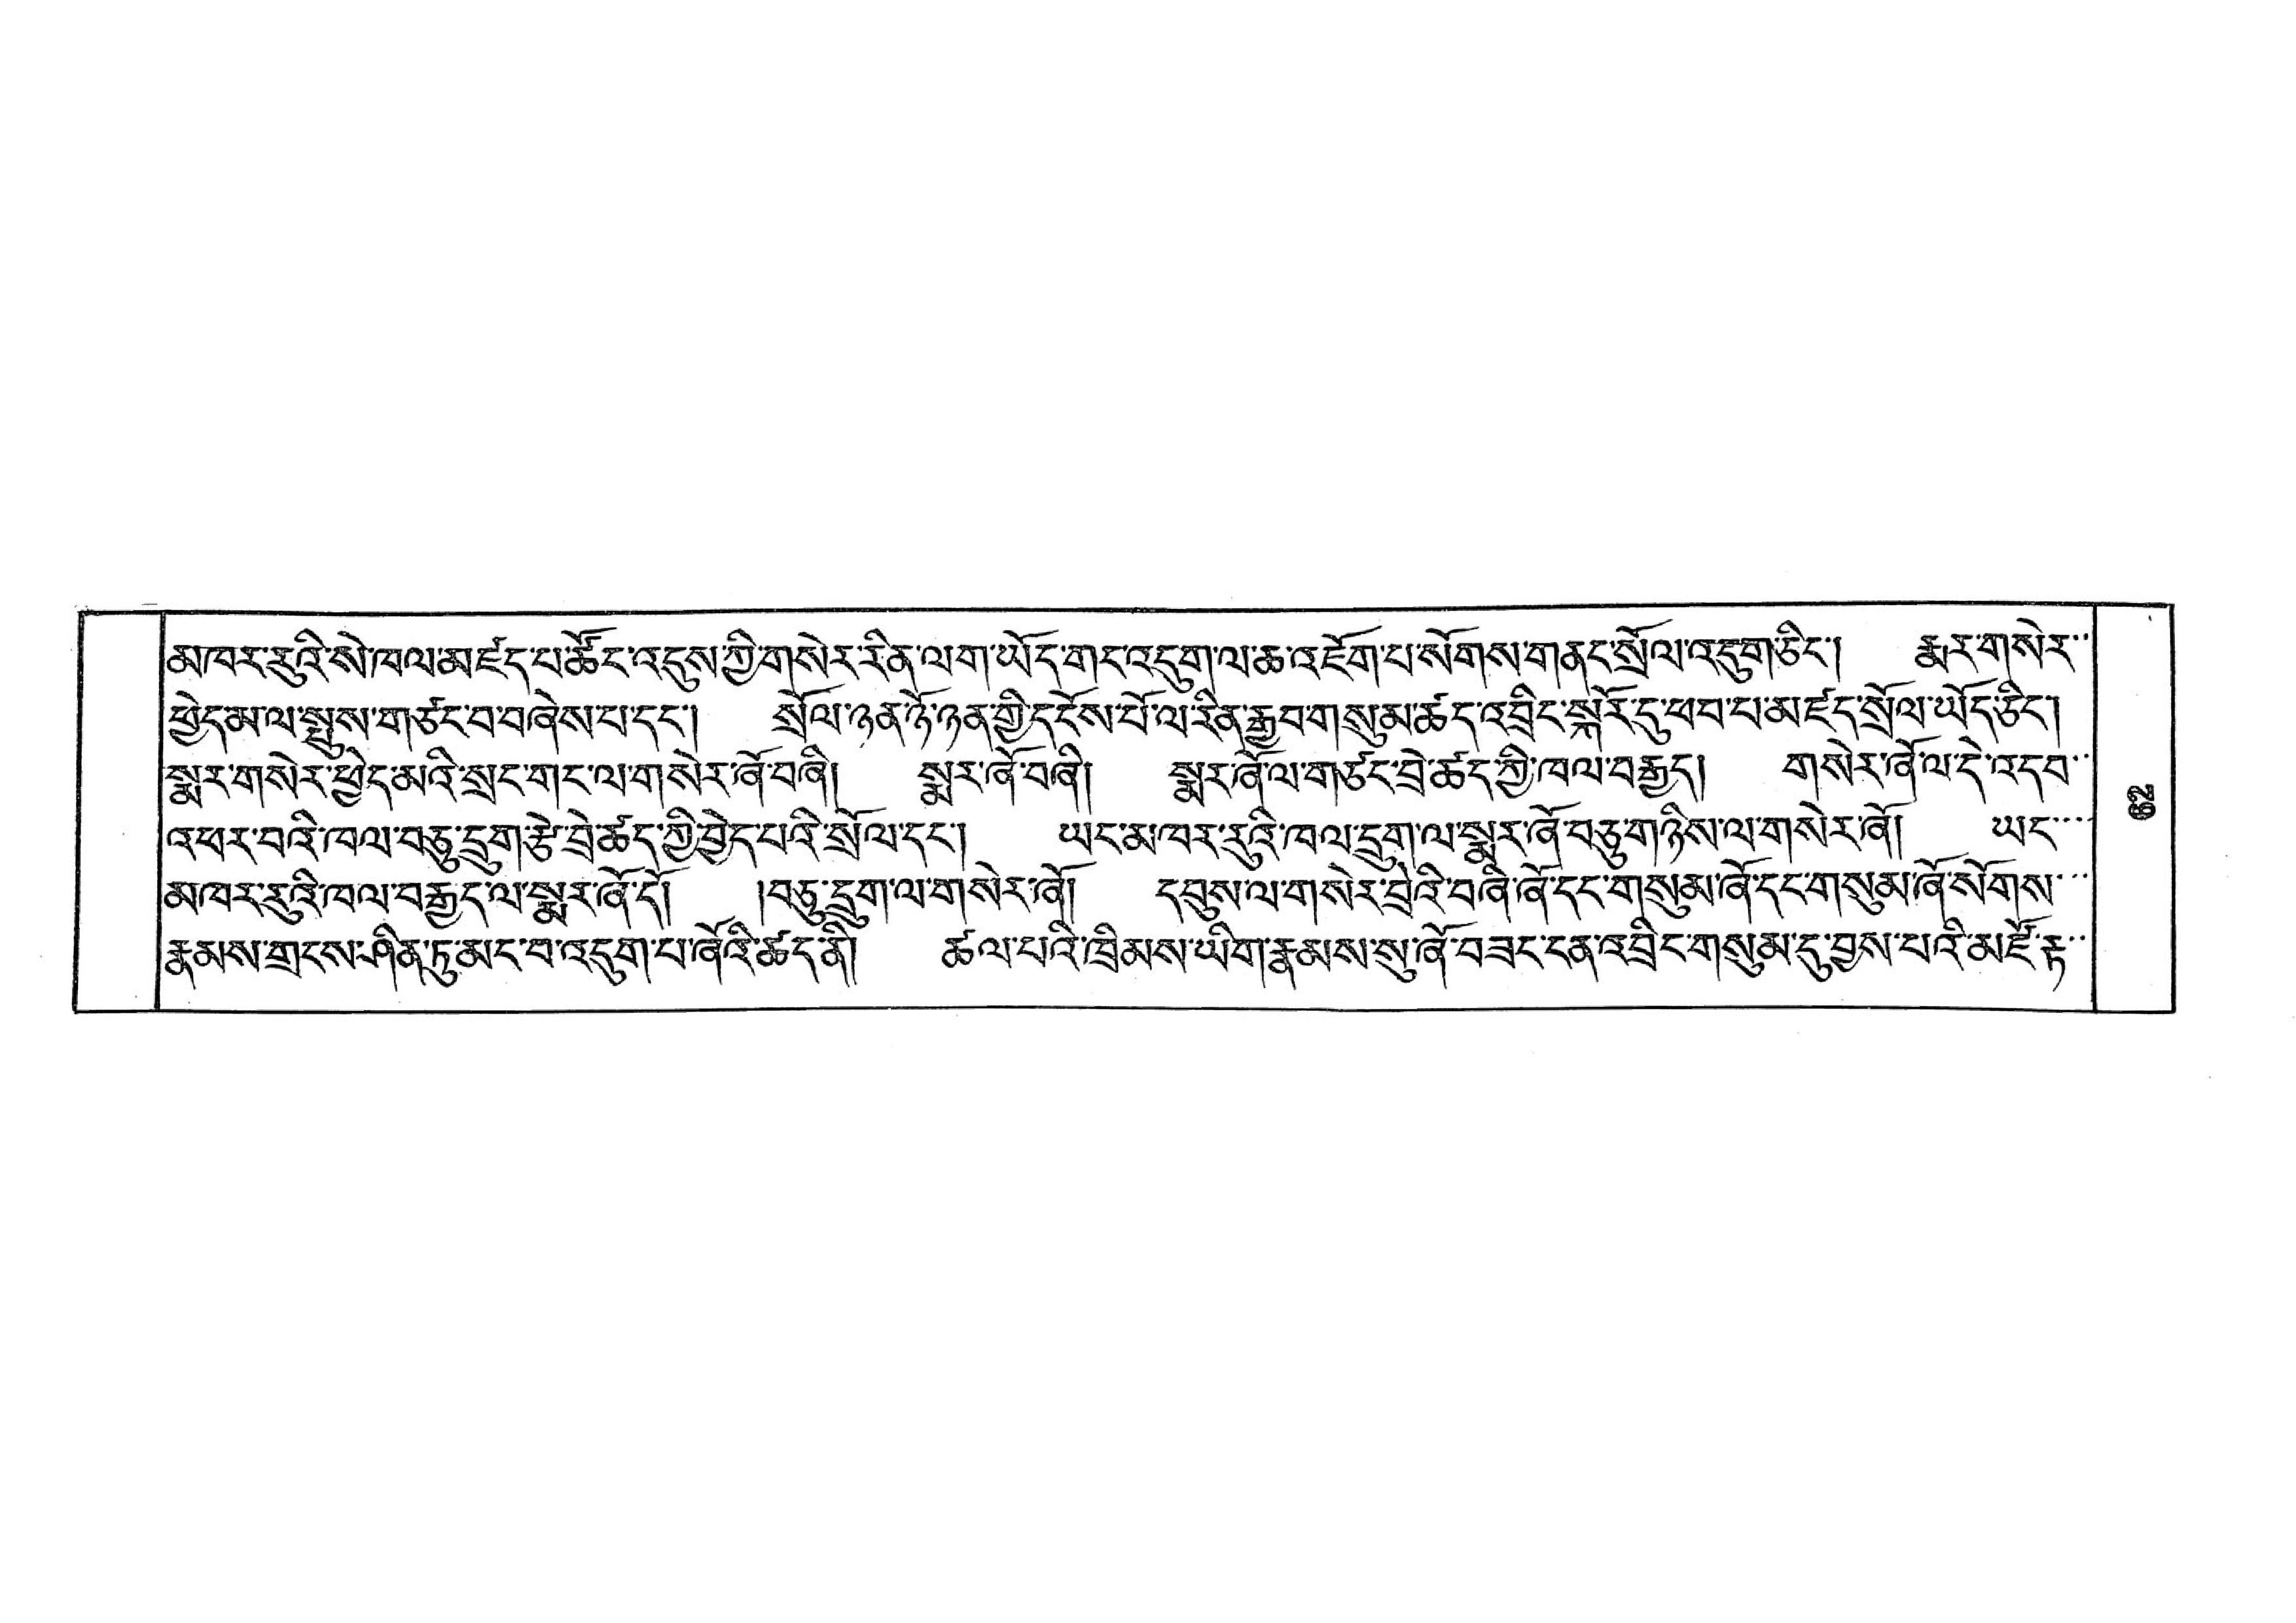མཁར་རུའི་སེ་ཁལ་མཛད་པ་ཚོང་འདུས་ཀྱི་གསེར་རིན་ལག་ཡོད་གང་འདུག་ལ་ཆ་འཇོག་པ་སོགས་གནང་སྲོལ་འདུག་ཅིང་། རྨར་གསེར་་
ཕྱེད་མ་ལ་སྤུས་གཙང་བ་བཞེས་པ་དང་། སྲོལ་ཉན་ཉོ་ཉན་གྱི་དངོས་པོ་ལ་རིན་རྒྱབ་གསུམ་ཚད་འབྲིང་སྐོར་དུ་ཕབ་པ་མཛད་སྲོལ་ཡོད་ཅིང་།
སྨར་གསེར་ཕྱེད་མའི་སྲང་གང་ལ་གསེར་ཞོ་བཞི། སྨར་ཞོ་བཞི། སྨར་ཞོ་ལ་གཙང་བྲེ་ཚད་ཀྱི་ཁལ་བརྒྱད། གསེར་ཞོ་ལ་དེ་འདབ་
འཕར་བའི་ཁལ་བཅུ་དྲུག་རྩེ་བྲེ་ཚད་ཀྱི་བྱེད་པའི་སྲོལ་དང་། ཡང་མཁར་རུའི་ཁལ་དྲུག་ལ་སྨར་ཞོ་བཅུ་གཉིས་ལ་གསེར་ཞོ། ཡང་་་་
མཁར་རུའི་ཁལ་བརྒྱད་ལ་སྨར་ཞོ་དོ། །བཅུ་དྲུག་ལ་གསེར་ཞོ། དབུས་ལ་གསེར་བྲེའི་བཞི་ཞོ་དང་གསུམ་ཞོ་དང་གསུམ་ཞོ་སོགས་་་
རྣམས་གྲངས་ཤིན་ཏུ་མང་བ་འདུག་པ་ཞོའི་ཚད་ནི། ཚལ་པའི་ཁྲིམས་ཡིག་རྣམས་སུ་ཞོ་བཟང་ངན་འབྲིང་གསུམ་དུ་བྱས་པའི་མཛོ་རྟ་་
